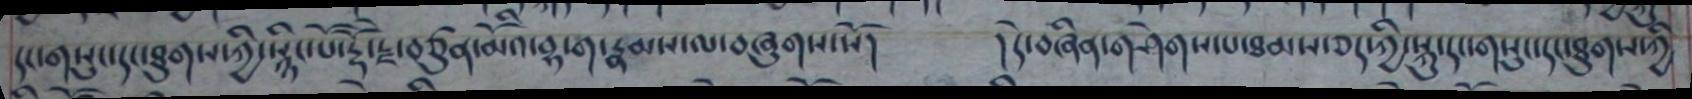དང་གསུང་དང་ཐུགས་ཀྱི་སྙིང་པོ་རྡོ་རྗེ་བཙུན་མོའི་བྷ་ག་རྣམས་ལ་བཞུགས་སོ། །དེ་བཞིན་གཤེགས་པ་ཐམས་ཅད་ཀྱི་སྐུ་དང་གསུང་དང་ཐུགས་ཀྱི་
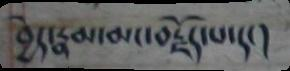བྱེད་རྣམ་མང་བརྗོད་པ་དང་།
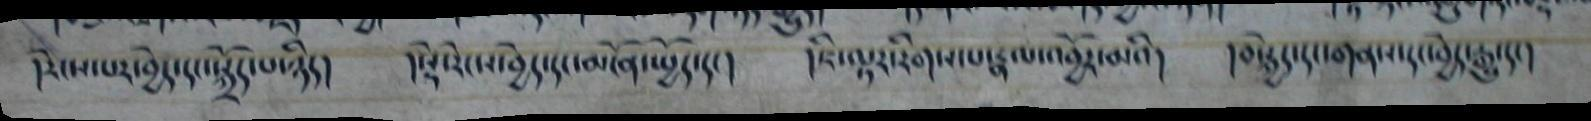།རེངས་པར་བྱེད་དང་སྐྲོད་པ་ཉིད། །སྡེ་རེངས་བྱེད་དང་མངོན་སྤྱོད་དང་། །ཇི་ལྟར་རིགས་པ་རྣལ་འབྱོར་མའི། །བསྐྱེད་དང་གནས་དང་བྱེད་རྒྱུ་དང་།
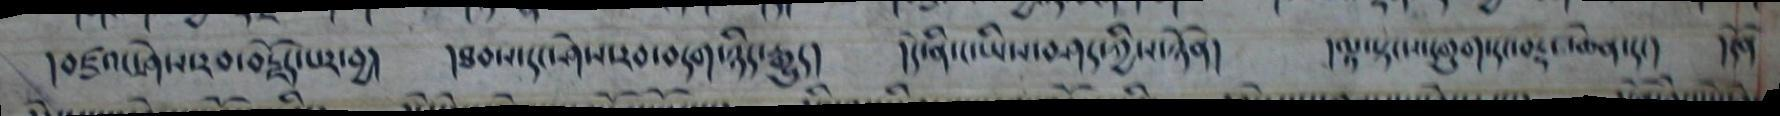།བཛྲའང་ཤེས་རབ་བརྗོད་པར་བྱ། །ཐབས་དང་ཤེས་རབ་བདག་ཉིད་རྒྱུད། །དེ་ནི་ང་ཡིས་བཤད་ཀྱིས་ཉོན། །ལྟ་སྟངས་དགུག་དང་བརྡང་ཆེན་དང་། །དོན
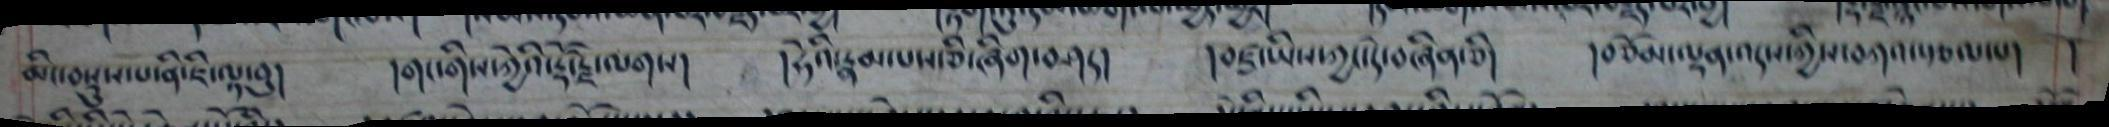མི་བསྡུས་པ་ནི་ཇི་ལྟ་བུ། །གང་གིས་ཀྱེའི་རྡོ་རྗེ་ལགས། །ཧེའི་རྣམ་པས་ཅི་ཞིག་བཤད། །བཛྲ་ཡིས་ཀྱང་དེ་བཞིན་ཅི། །བཅོམ་ལྡན་འདས་ཀྱིས་བཀའ་སྩལ་པ། །
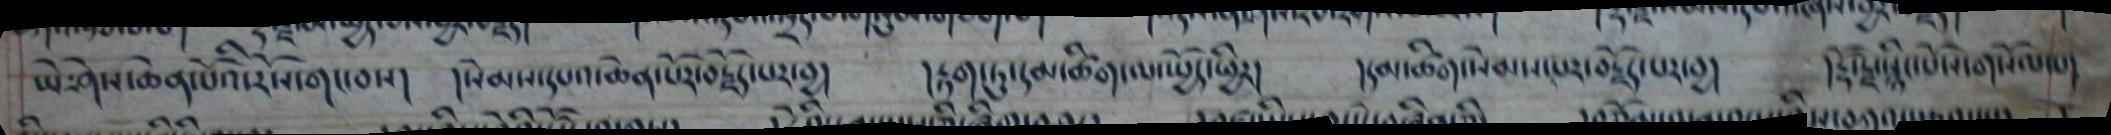ཡེ་ཤེས་ཆེན་པོའི་རོས་གང་བས།  །སེམས་དཔའ་ཆེན་པོར་བརྗོད་པར་བྱ།   །རྟག་ཏུ་དམ་ཚིག་ལ་སྤྱོད་ཕྱིར།   །དམ་ཚིག་སེམས་པར་བརྗོད་པར་བྱ།   །རྡོ་རྗེ་སྙིང་པོས་གསོལ་པ་
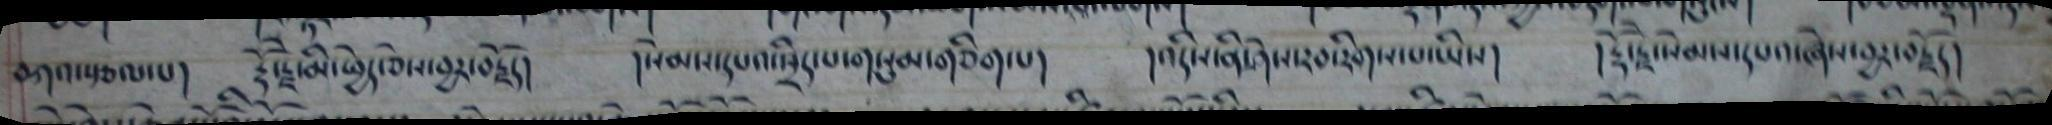བཀའ་སྩལ་པ། རྡོ་རྗེ་མི་ཕྱེད་ཅེས་བྱར་བརྗོད། །སེམས་དཔའ་སྲིད་པ་གསུམ་གཅིག་པ། །འདིས་ནི་ཤེས་རབ་རིགས་པ་ཡིས། །རྡོ་རྗེ་སེམས་དཔའ་ཞེས་བྱར་བརྗོད།
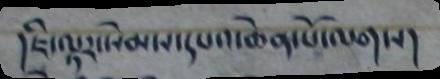།ཇི་ལྟར་སེམས་དཔའ་ཆེན་པོ་ལགས།
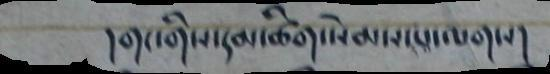།གང་གིས་དམ་ཚིག་སེམས་པ་ལགས།
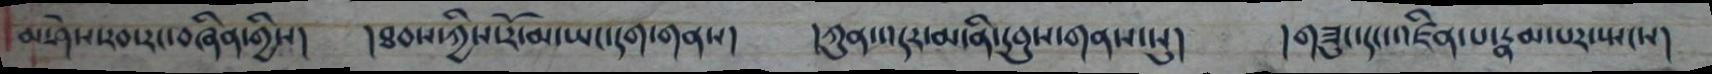མ་ཤེས་རབ་རང་བཞིན་གྱིས། །ཐབས་ཀྱིས་རོ་མ་ཡང་དག་གནས། །ཀུན་འདར་མ་ནི་དབུས་གནས་སུ། །གཟུང་དང་འཛིན་པ་རྣམ་པར་སྤངས།
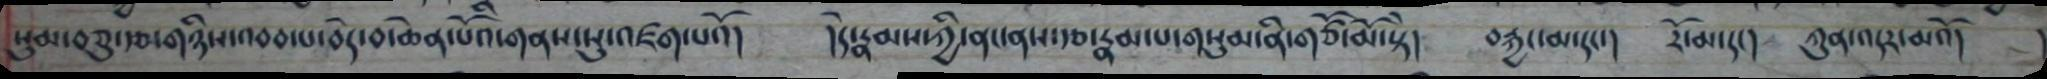སུམ་བཅུ་རྩ་གཉིས་འབབ་པ་བདེ་བ་ཆེན་པོའི་གནས་སུ་འཛག་པའོ། །དེ་རྣམས་ཀྱི་ནང་ནས་རྩ་རྣམ་པ་གསུམ་ནི་གཙོ་མོ་སྟེ། བརྐྱང་མ་དང་། རོ་མ་དང། ཀུན་འདར་མའོ།
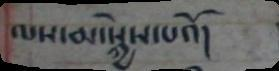ལས་མ་སྐྱེས་པའོ།
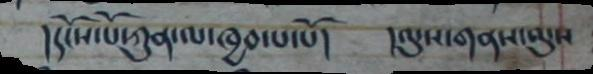།དངོས་པོ་ཀུན་ལ་ཁྱབ་པ་པོ། །ལུས་གནས་ལུས
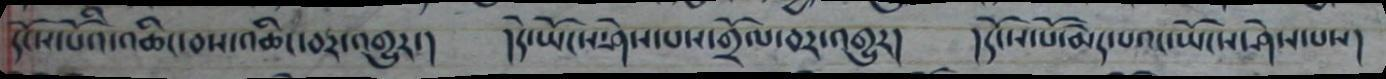དངོས་པོའི་འཆིང་བས་འཆིང་བར་འགྱུར་། །དེ་ཡོངས་ཤེས་པས་གྲོལ་བར་འགྱུར། །དངོས་པོ་མེད་པའང་ཡོངས་ཤེས་པས།
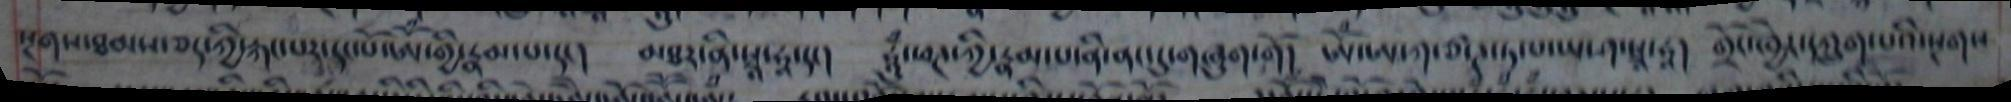སྔགས་ཐམས་ཅད་ཀྱི་རྐང་པར་དང་པོའམ་གྱི་རྣམ་པ་དང་།   མཐར་ནི་སྭཱ་ཧཱ་དང།  ཧྰུྃ་ཕཌ་ཀྱི་རྣམ་པ་ནི་ནང་དུགཞུག་གོ།   ཨོྃ་ཨ་ཀ་ཙ་ཊ་པ་ཡ་ཤ་སྭཱ་ཧཱ།  གྲོང་ཁྱེར་དཀྲུག་པའི་སྔགས
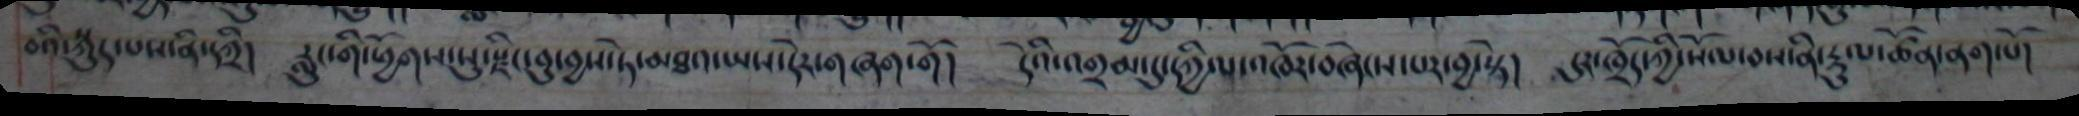བའི་སྐུད་པས་ནི་དཀྲི། རླུང་གི་ཕྱོགས་སུ་སྫིང་བུ་བྱས་ཏེ་མཐའ་ཡས་དེར་གཞག་གོ། དེའི་འགྲམ་དུ་དཀྱིལ་འཁོར་བཞེངས་པར་བྱ་སྟེ། དུར་ཁྲོད་ཀྱི་སོལ་བས་ནི་རྡུལ་ཚོན་ནག་པོ།
